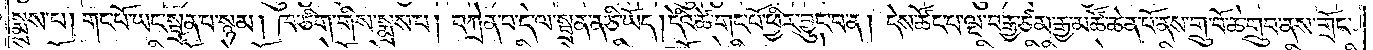སྨྲས་པ། གང་པོ་ཡང་སྦྲན་པ་སྙམ། ཁ་ཅིག་གིས་སྨྲས་པ། བཀྲེན་པ་དེ་ལ་སྦྲན་ན་ཅི་ཡོད། དེའི་ཚེ་གང་པོ་ཕྱིར་བྱུང་བ་ན། དེས་ཚོང་པ་ལྔ་བརྒྱ་ཙམ་རྒྱ་མཚོ་ཆེན་པོ་ནས་གྲུ་པོ་ཆེ་གྲུབ་ནས་གྲོང་
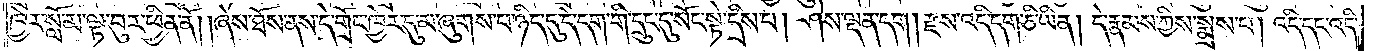ཁྱེར་སློ་མ་ལྟ་བུར་ཕྱིན་ནོ། །ཞེས་ཐོས་ནས་དེ་གྲོང་ཁྱེར་དུ་མ་ཞུགས་པ་ཉིད་དུ་དེ་དག་གི་དྲུང་དུ་སོང་སྟེ་དྲིས་པ། ཤེས་ལྡན་དག །རྫས་འདི་དག་ཅི་ཡིན། དེ་རྣམས་ཀྱིས་སྨྲས་པ། འདི་དང་འདི་
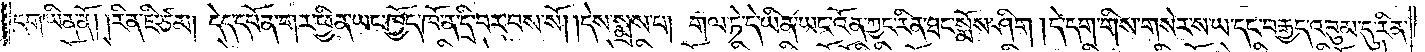དག་ཡིན་ནོ། །རིན་ཇི་ཙམ། དེད་དཔོན་གར་ཕྱིན་ཡང་ཁྱོད་ཁོ་ན་དྲི་བར་བས་སོ། །དེས་སྨྲས་པ། གལ་ཏེ་དེ་ཡིན་ཡང་འོན་ཀྱང་རིན་ཐང་སྨོས་ཤིག །དེ་དག་གིས་གསེར་ས་ཡ་དང་བརྒྱད་འབུམ་དུ་རིན་
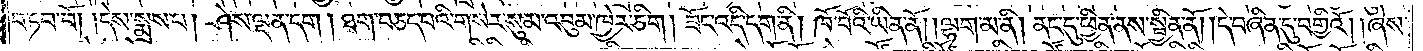བཏབ་བོ། །དེས་སྨྲས་པ། ཤེས་ལྡན་དག །ཐག་བཅད་པའི་གསེར་སུམ་འབུམ་ཁྱེར་ཅིག །ཟོང་འདི་དག་ནི། ཁོ་བོའི་ཡིན་ནོ། །ལྷག་མ་ནི། ནང་དུ་ཕྱིན་ནས་སྦྱིན་ནོ། །དེ་བཞིན་དུ་བགྱིའོ། །ཞེས་
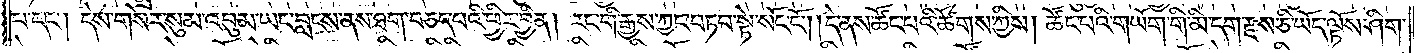པ་དང༌། དེས་གསེར་སུམ་འབུམ་ཡང་བླངས་ནས་ཐག་བཅད་པའི་ཕྱིར་བྱིན། རང་གི་རྒྱས་ཀྱང་བཏབ་སྟེ་སོང་ངོ༌། །དེ་ནས་ཚོང་པའི་ཚོགས་ཀྱིས། ཚོང་པའི་གཡོག་གི་མི་དག་རྫས་ཅི་ཡོད་ལྟོས་ཤིག་
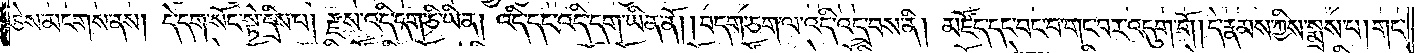ཅེས་མངགས་ནས། དེ་དག་སོང་སྟེ་དྲིས་པ། རྫས་འདི་དག་ཅི་ཡིན། འདི་དང་འདི་དག་ཡིན་ནོ། །བདག་ཅག་ལ་འདི་འདྲ་བས་ནི། མཛོད་དང་བང་བ་གང་བར་འདུག་གོ །དེ་རྣམས་ཀྱིས་སྨྲས་པ། གང་
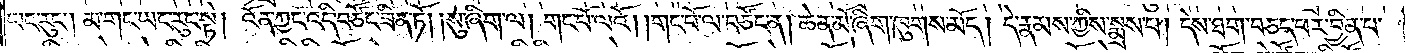ཡང་རུང༌། མ་གང་ཡང་རུང་སྟེ། འོན་ཀྱང་འདི་བཙོང་ཟིན་ཏོ། །སུ་ཞིག་ལ། གང་པོ་ལའོ། །གང་པོ་ལ་བཙོང་ན། ཆེན་མོ་ཞིག་ཁུགས་མོད། དེ་རྣམས་ཀྱིས་སྨྲས་པ། དེས་ཐག་བཅད་ཕར་བྱིན་པ་
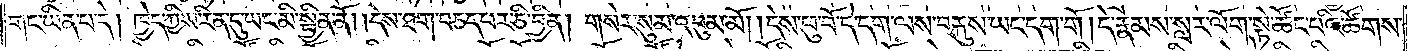གང་ཡིན་པ་དེ། ཁྱེད་ཀྱིས་རིན་དུ་ཡང་མི་སྦྱིན་ནོ། །དེས་ཐག་བཅད་པར་ཅི་བྱིན། གསེར་སུམ་འབུམ་མོ། །དེས་ཕུ་བོ་དེ་དག་ལས་བརྐུས་ཡང་དག་གོ །དེ་རྣམས་སླར་ལོག་སྟེ་ཚོང་པའི་ཚོགས་
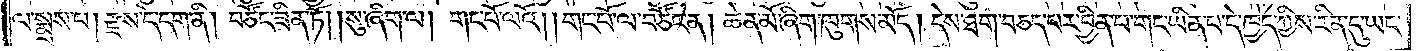ལ་སྨྲས་པ། རྫས་དེ་དག་ནི། བཙོང་ཟིན་ཏོ། །སུ་ཞིག་ལ། གང་པོ་ལའོ། །གང་པོ་ལ་བཙོང་ན། ཆེན་མོ་ཞིག་ཁུགས་མོད། །དེས་ཐག་བཅད་པར་བྱིན་པ་གང་ཡིན་པ་དེ་ཁྱེད་ཀྱིས་རིན་དུ་ཡང་
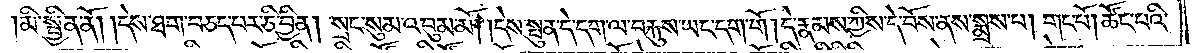མི་སྦྱིན་ནོ། །དེས་ཐག་བཅད་པར་ཅི་བྱིན། སྲང་སུམ་འབུམ་མོ། །དེས་སྤུན་དེ་དག་ལ་བརྐུས་ཡང་དག་གོ། དེ་རྣམས་ཀྱིས་དེ་བོས་ནས་སྨྲས་པ། གང་པོ། ཚོང་པའི་
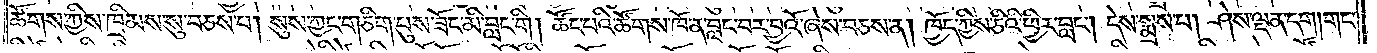ཚོགས་ཀྱིས་ཁྲིམས་སུ་བཅས་པ། སུས་ཀྱང་གཅིག་པུས་ཟོང་མི་བླང་གི། ཚོང་པའི་ཚོགས་ཁོ་ན་བླང་བར་བྱའོ་ཞེས་བཅས་ན། ཁྱོད་ཀྱིས་ཅིའི་ཕྱིར་བླང༌། དེས་སྨྲས་པ། ཤེས་ལྡན་དག། གང་
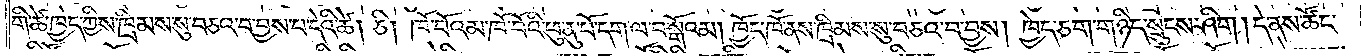གི་ཚེ་ཁྱེད་ཀྱིས་ཁྲིམས་སུ་བཅའ་བ་བྱས་པ་དེའི་ཚེ། ཅི། ཁོ་བོའམ་ཁོ་བོའི་ཕུ་ནུ་པོ་དག་ལ་བསྒོའམ། ཁྱོད་ཁོ་ནས་ཁྲིམས་སུ་བཅའ་བ་བྱས། ཁྱེད་ཅག་གཉིད་སྲུངས་ཤིག །དེ་ནས་ཚོང་
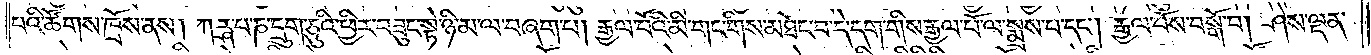པའི་ཚོགས་ཁྲོས་ནས། ཀཪྴ་པ་ཎ་དྲུག་ཅུའི་ཕྱིར་བཟུང་སྟེ་ཉི་མ་ལ་བཞག་པ། རྒྱལ་པོའི་མི་གང་གིས་མཐོང་བ་དེ་དག་གིས་རྒྱལ་པོ་ལ་སྨྲས་པ་དང༌། རྒྱལ་པོས་བསྒོ་བ། ཤེས་ལྡན་
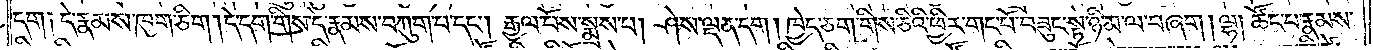དག༑ དེ་རྣམས་ཁུག་ཅིག །དེ་དག་གིས་དེ་རྣམས་བཀུག་པ་དང༌། རྒྱལ་པོས་སྨྲས་པ། ཤེས་ལྡན་དག །ཁྱེད་ཅག་གིས་ཅིའི་ཕྱིར་གང་པོ་བཟུང་སྟེ་ཉི་མ་ལ་བཞག། ལྷ། ཚོང་བ་རྣམས་
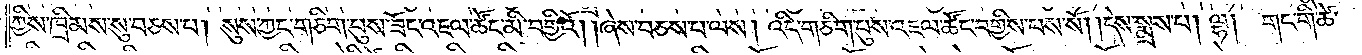ཀྱིས་ཁྲིམས་སུ་བཅས་པ། སུས་ཀྱང་གཅིག་པུས་ཟོང་འཇལ་ཚོང་མི་བགྱིའོ། །ཞེས་བཅས་པ་ལས། འདི་གཅིག་པུས་འཇལ་ཚོང་བགྱིས་པས་སོ། །དེས་སྨྲས་པ། ལྷ།  གང་གི་ཚེ་
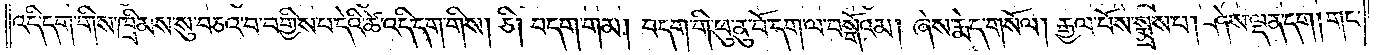འདི་དག་གིས་ཁྲིམས་སུ་བཅའ་བ་བགྱིས་པ་དེའི་ཚེ་འདི་དག་གིས། ཅི། བདག་གམ། བདག་གི་ཕུ་ནུ་བོ་དག་ལ་བསྒོའམ། ཞེས་རྨེད་གསོལ། རྒྱལ་པོས་སྨྲས་པ། ཤེས་ལྡན་དག། གང་
